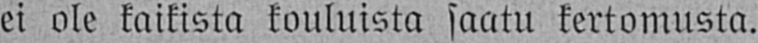ei ale kaikista kouluista saatu kertomusta.
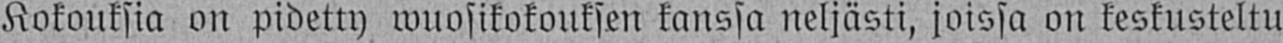Kokouksia on pidetty wuosikokouksen kanssa neljästi, joissa on keskusteltu
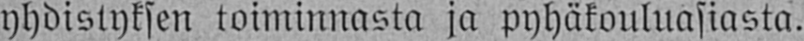yhdistyksen toiminnasta ja pyhäkouluasiasta.
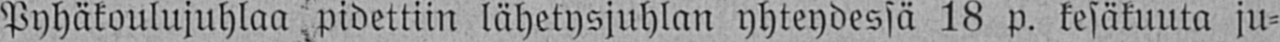Pyhäkoulujuhlaa lähetysjuhlan yhteydessä 18 p. kesäkuuta ju-
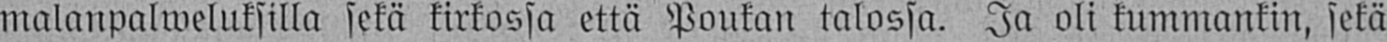malanpalweluksilla sekä kirkossa että Poukan talossa. Ja oli kummankin, sekä
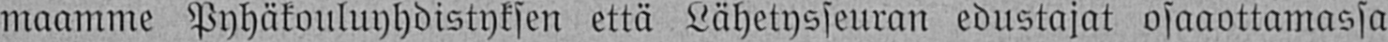maamme Pyhäkouluyhdistyksen että Lähetysseuran edustajat osaaottamassa
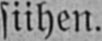siihen.
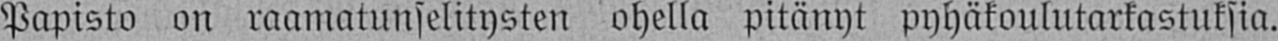Papisto on raamatunselitysten ohella pitänyt pyhäkoulutarkastuksia.
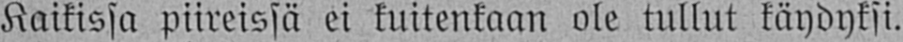Kaikissa piireissä ei kuitenkaan ole tullut käydyksi.
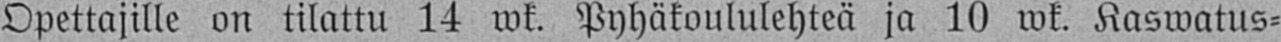Opettajille on tilattu 14 wk. Pyhäkoululehteä ja 10 wk. Kaswatus-
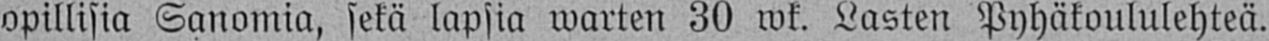opillisia Sanomia, sekä lapsia warten 30 wk. Lasten Pyhäkoululehteä.
